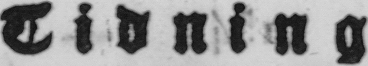Tidning
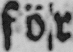för
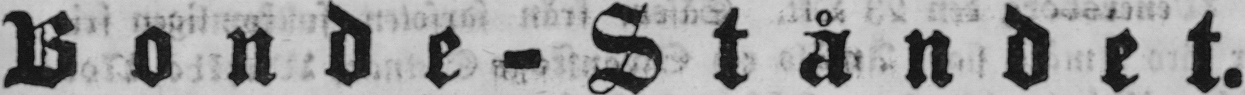B o n d e - S t å n d e t.
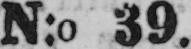N:o 39.
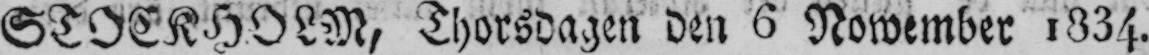STOCKH0LM, Thorsdagen den 6 Nowember 1834.
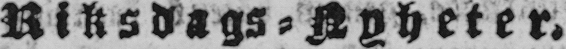Riksdags-Nyheter.
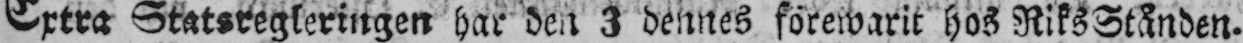Extra Statsregleringen har den 3 dennes förewarit hos RiksStånden.
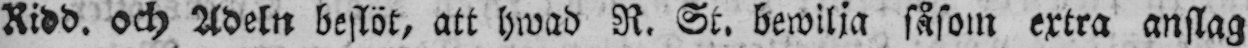Ridd. och Adeln beslöt, att hwad R. St. bewilja såsom extra anslag
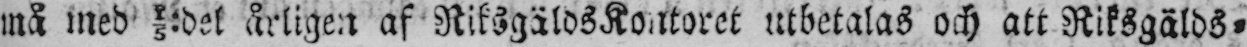må med 1/5:del årligen af RiksgäldsKontoret utbetalas och att Riksgälds-
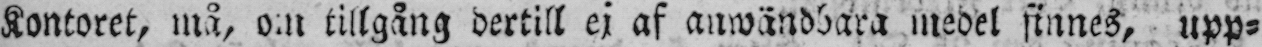Kontoret, må, om tillgång dertill ej af anwändbara medel finnes, upp-
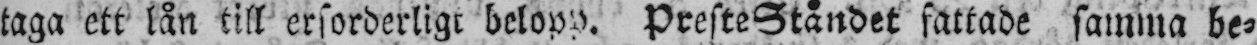taga ett lån till erforderligt belopp. PresteStåndet fattade samma be-
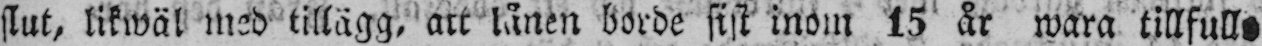slut, likwäl med tillägg, att lånen borde sist inom l5 år wara tillfullo
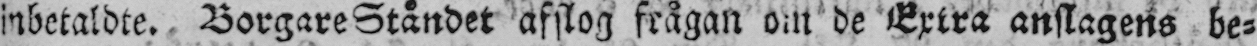inbetaldte. BorgareStåndet afslog frågan om de Extra anslagens be-
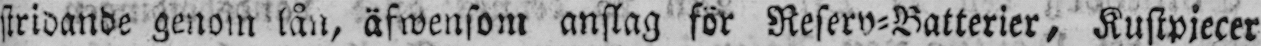stridande genom lån, äfwensom anslag för Reserv-Batterier, Kustpjecer
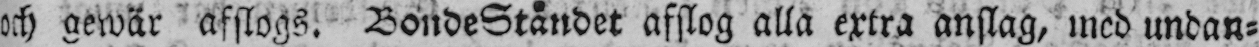och gewär afslogs. BondeStåndet afslog alla extra anslag, med undan-
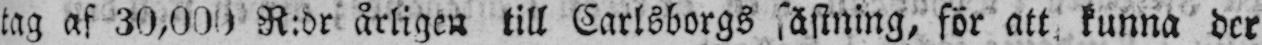tag af 30,000 R:dr årligen till Carlsborgs fästning, för att kunna der
